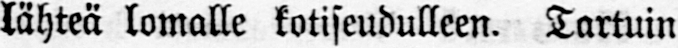lähteä lomalle kotiseudulleen. Tartuin
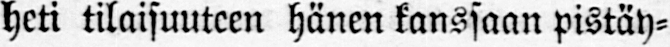heti tilaisuuteen hänen kanssaan pistäy-
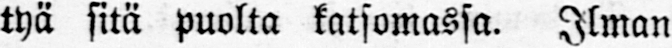tyä sitä puolta katsomassa. Ilman
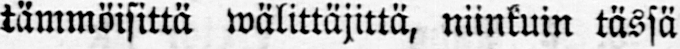tämmöisittä wälittäjittä, niinkuin tässä
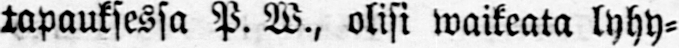tapauksessa P. W., olisi waikeata lyhy-
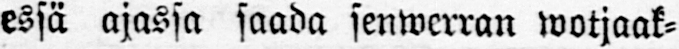essä ajassa saada senwerran wotjaak-
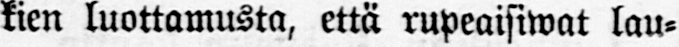kien luottamusta, että rupeaisiwat lau-
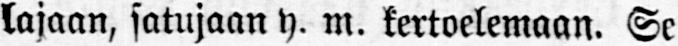lajaan, satujaan y. m. kertoelemaan. Se
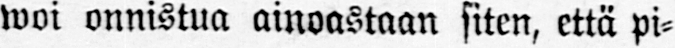woi onnistua ainoastaan siten, että pi-
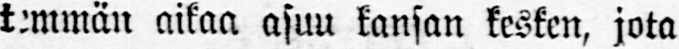temmän aikaa asuu kansan kesken, jota
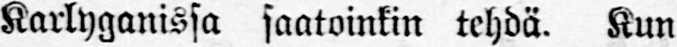Karlyganissa saatoinkin tehdä. Kun
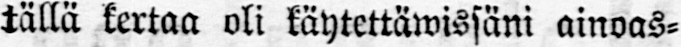tällä kertaa oli käytettäwissäni ainoas-
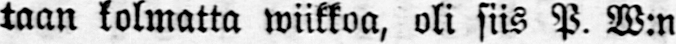taan kolmatta wiikkoa, oli siis P. W:n
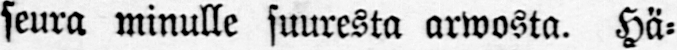seura minulle suuresta arwosta. Hä-
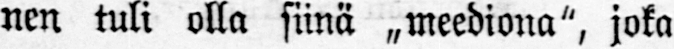nen tuli olla siinä „meediona", joka
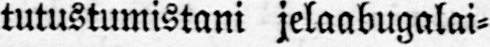tutustumistani jelaabugalai-
